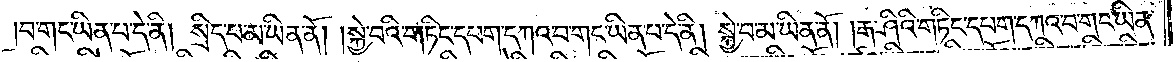བ་གང་ཡིན་པ་དེ་ནི། སྲིད་པ་མ་ཡིན་ནོ། །སྐྱེ་བའི་གཏིང་དཔག་དཀའ་བ་གང་ཡིན་པ་དེ་ནི། སྐྱེ་བ་མ་ཡིན་ནོ། །རྒ་ཤིའི་གཏིང་དཔག་དཀའ་བ་གང་ཡིན་
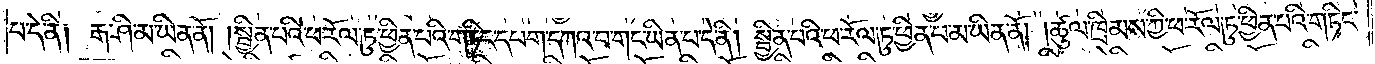པ་དེ་ནི༑ རྒ་ཤི་མ་ཡིན་ནོ། །སྦྱིན་པའི་ཕ་རོལ་ཏུ་ཕྱིན་པའི་གཏིང་དཔག་དཀའ་བ་གང་ཡིན་པ་དེ་ནི། སྦྱིན་པའི་ཕ་རོལ་ཏུ་ཕྱིན་པ་མ་ཡིན་ནོ། །ཚུལ་ཁྲིམས་ཀྱི་ཕ་རོལ་ཏུ་ཕྱིན་པའི་གཏིང་
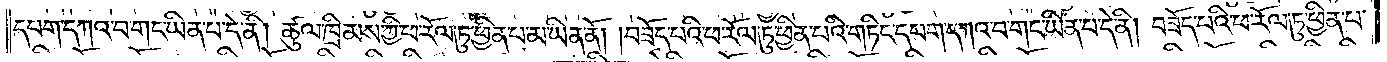དཔག་དཀའ་བ་གང་ཡིན་པ་དེ་ནི། ཚུལ་ཁྲིམས་ཀྱི་ཕ་རོལ་ཏུ་ཕྱིན་པ་མ་ཡིན་ནོ། །བཟོད་པའི་ཕ་རོལ་ཏུ་ཕྱིན་པའི་གཏིང་དཔག་དཀའ་བ་གང་ཡིན་པ་དེ་ནི། བཟོད་པའི་ཕ་རོལ་ཏུ་ཕྱིན་པ་
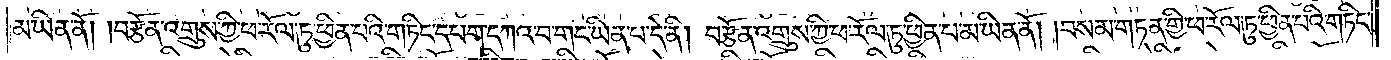མ་ཡིན་ནོ། །བརྩོན་འགྲུས་ཀྱི་ཕ་རོལ་ཏུ་ཕྱིན་པའི་གཏིང་དཔག་དཀའ་བ་གང་ཡིན་པ་དེ་ནི། བརྩོན་འགྲུས་ཀྱི་ཕ་རོལ་ཏུ་ཕྱིན་པ་མ་ཡིན་ནོ། །བསམ་གཏན་གྱི་ཕ་རོལ་ཏུ་ཕྱིན་པའི་གཏིང་
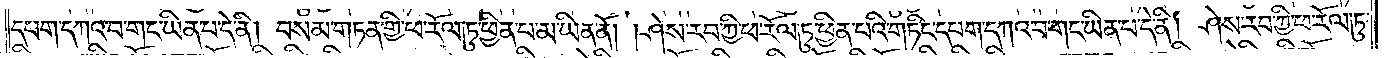དཔག་དཀའ་བ་གང་ཡིན་པ་དེ་ནི། བསམ་གཏན་གྱི་ཕ་རོལ་ཏུ་ཕྱིན་པ་མ་ཡིན་ནོ། །ཤེས་རབ་ཀྱི་ཕ་རོལ་ཏུ་ཕྱིན་པའི་གཏིང་དཔག་དཀའ་བ་གང་ཡིན་པ་དེ་ནི། ཤེས་རབ་ཀྱི་ཕ་རོལ་ཏུ་
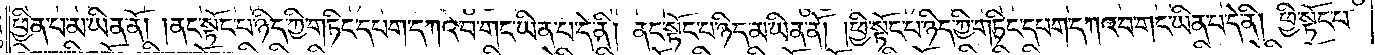ཕྱིན་པ་མ་ཡིན་ནོ། །ནང་སྟོང་པ་ཉིད་ཀྱི་གཏིང་དཔག་དཀའ་བ་གང་ཡིན་པ་དེ་ནི། ནང་སྟོང་པ་ཉིད་མ་ཡིན་ནོ། །ཕྱི་སྟོང་པ་ཉིད་ཀྱི་གཏིང་དཔག་དཀའ་བ་གང་ཡིན་པ་དེ་ནི། ཕྱི་སྟོང་པ་
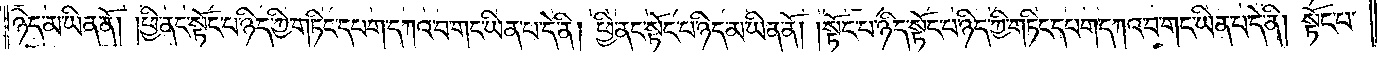ཉིད་མ་ཡིན་ནོ། །ཕྱི་ནང་སྟོང་པ་ཉིད་ཀྱི་གཏིང་དཔག་དཀའ་བ་གང་ཡིན་པ་དེ་ནི། ཕྱི་ནང་སྟོང་པ་ཉིད་མ་ཡིན་ནོ། །སྟོང་པ་ཉིད་སྟོང་པ་ཉིད་ཀྱི་གཏིང་དཔག་དཀའ་བ་གང་ཡིན་པ་དེ་ནི། སྟོང་པ་
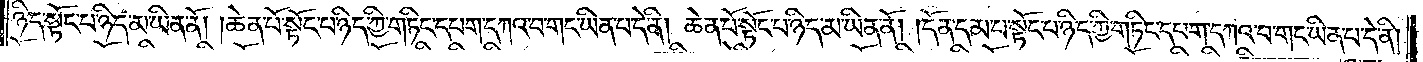ཉིད་སྟོང་པ་ཉིད་མ་ཡིན་ནོ། །ཆེན་པོ་སྟོང་པ་ཉིད་ཀྱི་གཏིང་དཔག་དཀའ་བ་གང་ཡིན་པ་དེ་ནི། ཆེན་པོ་སྟོང་པ་ཉིད་མ་ཡིན་ནོ། །དོན་དམ་པ་སྟོང་པ་ཉིད་ཀྱི་གཏིང་དཔག་དཀའ་བ་གང་ཡིན་པ་དེ་ནི།
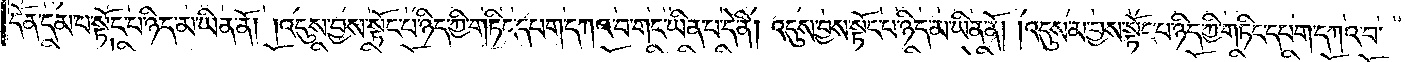དོན་དམ་པ་སྟོང་པ་ཉིད་མ་ཡིན་ནོ། །འདུས་བྱས་སྟོང་པ་ཉིད་ཀྱི་གཏིང་དཔག་དཀའ་བ་གང་ཡིན་པ་དེ་ནི། འདུས་བྱས་སྟོང་པ་ཉིད་མ་ཡིན་ནོ། །འདུས་མ་བྱས་སྟོང་པ་ཉིད་ཀྱི་གཏིང་དཔག་དཀའ་བ་
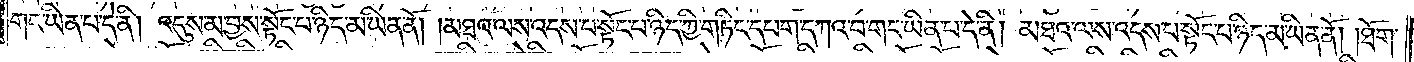གང་ཡིན་པ་དེ་ནི། འདུས་མ་བྱས་སྟོང་པ་ཉིད་མ་ཡིན་ནོ། །མཐའ་ལས་འདས་པ་སྟོང་པ་ཉིད་ཀྱི་གཏིང་དཔག་དཀའ་བ་གང་ཡིན་པ་དེ་ནི། མཐའ་ལས་འདས་པ་སྟོང་པ་ཉིད་མ་ཡིན་ནོ། །ཐོག་
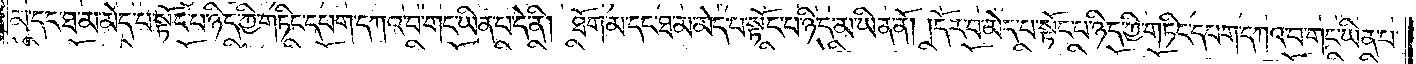མ་དང་ཐ་མ་མེད་པ་སྟོང་པ་ཉིད་ཀྱི་གཏིང་དཔག་དཀའ་བ་གང་ཡིན་པ་དེ་ནི། ཐོག་མ་དང་ཐ་མ་མེད་པ་སྟོང་པ་ཉིད་མ་ཡིན་ནོ། །དོར་བ་མེད་པ་སྟོང་པ་ཉིད་ཀྱི་གཏིང་དཔག་དཀའ་བ་གང་ཡིན་པ་
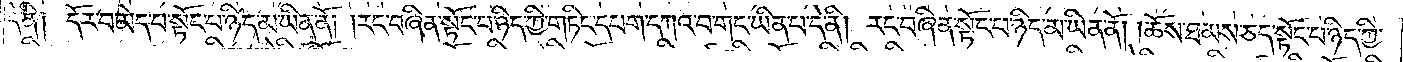དེ་ནི༑ དོར་བ་མེད་པ་སྟོང་པ་ཉིད་མ་ཡིན་ནོ། །རང་བཞིན་སྟོང་པ་ཉིད་ཀྱི་གཏིང་དཔག་དཀའ་བ་གང་ཡིན་པ་དེ་ནི། རང་བཞིན་སྟོང་པ་ཉིད་མ་ཡིན་ནོ། །ཆོས་ཐམས་ཅད་སྟོང་པ་ཉིད་ཀྱི་
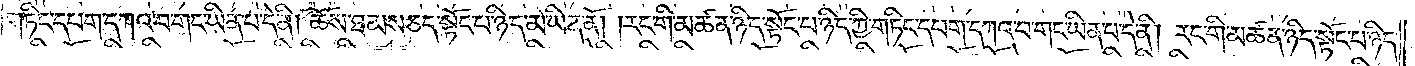གཏིང་དཔག་དཀའ་བ་གང་ཡིན་པ་དེ་ནི། ཆོས་ཐམས་ཅད་སྟོང་པ་ཉིད་མ་ཡིན་ནོ། །རང་གི་མཚན་ཉིད་སྟོང་པ་ཉིད་ཀྱི་གཏིང་དཔག་དཀའ་བ་གང་ཡིན་པ་དེ་ནི། རང་གི་མཚན་ཉིད་སྟོང་པ་ཉིད་
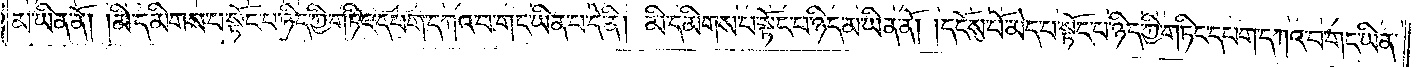མ་ཡིན་ནོ། །མི་དམིགས་པ་སྟོང་པ་ཉིད་ཀྱི་གཏིང་དཔག་དཀའ་བ་གང་ཡིན་པ་དེ་ནི། མི་དམིགས་པ་སྟོང་པ་ཉིད་མ་ཡིན་ནོ། །དངོས་པོ་མེད་པ་སྟོང་པ་ཉིད་ཀྱི་གཏིང་དཔག་དཀའ་བ་གང་ཡིན་
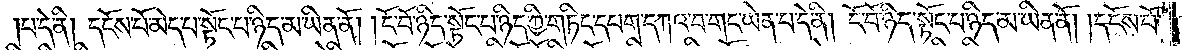པ་དེ་ནི། དངོས་པོ་མེད་པ་སྟོང་པ་ཉིད་མ་ཡིན་ནོ། །ངོ་བོ་ཉིད་སྟོང་པ་ཉིད་ཀྱི་གཏིང་དཔག་དཀའ་བ་གང་ཡིན་པ་དེ་ནི། ངོ་བོ་ཉིད་སྟོང་པ་ཉིད་མ་ཡིན་ནོ། །དངོས་པོ་
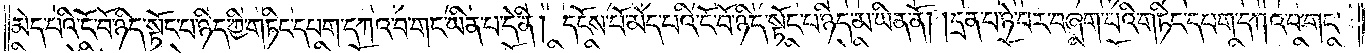མེད་པའི་ངོ་བོ་ཉིད་སྟོང་པ་ཉིད་ཀྱི་གཏིང་དཔག་དཀའ་བ་གང་ཡིན་པ་དེ་ནི། དངོས་པོ་མེད་པའི་ངོ་བོ་ཉིད་སྟོང་པ་ཉིད་མ་ཡིན་ནོ། །དྲན་པ་ཉེ་བར་བཞག་པའི་གཏིང་དཔག་དཀའ་བ་གང་
